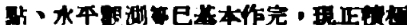點、水平觀測等已基本作完，現正積極
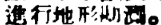進行地形勘測。
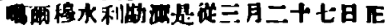噶爾穆水利勘測是從三月二十七日正
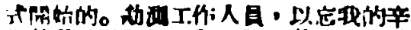式開始的。勘測工作人員，以忘我的辛
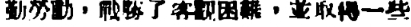勤勞動，戰勝了客觀困難，並取得一些
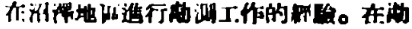在沼澤地區進行勘測工作的經驗。在勘
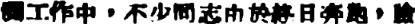測工作中，不少同志由於終日奔跑，臉
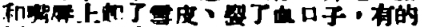和嘴脣上起了雪皮、裂了血口子，有的
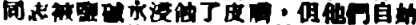同志被鹽碱水浸蝕了皮膚，但他們自始
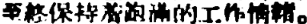至終保持着飽滿的工作情緒。
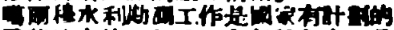噶爾穆水利勘測工作是國家有計劃的
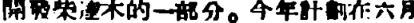開發柴達木的一部分。今年計劃在六月
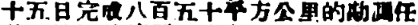十五日完成八百五十平方公里的勘測任
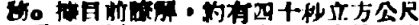務。據目前瞭解，約有四十秒立方公尺
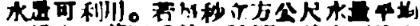水量可利用。若每秒立方公尺水量平均
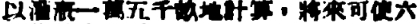以灌溉一萬五千畝地計算，將來可使六
